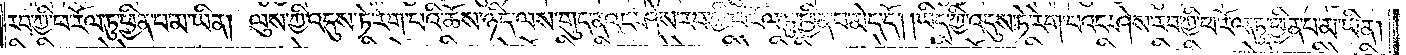རབ་ཀྱི་ཕ་རོལ་ཏུ་ཕྱིན་པ་མ་ཡིན། ལུས་ཀྱི་འདུས་ཏེ་རེག་པའི་ཆོས་ཉིད་ལས་གུད་ནའང་ཤེས་རབ་ཀྱི་ཕ་རོལ་ཏུ་ཕྱིན་པ་མེད་དོ། ཡིད་ཀྱི་འདུས་ཏེ་རེག་པའང་ཤེས་རབ་ཀྱི་ཕ་རོལ་ཏུ་ཕྱིན་པ་མ་ཡིན།
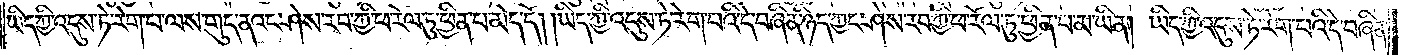ཡིད་ཀྱི་འདུས་ཏེ་རེག་པ་ལས་གུད་ནའང་ཤེས་རབ་ཀྱི་ཕ་རོལ་ཏུ་ཕྱིན་པ་མེད་དོ། །ཡིད་ཀྱི་འདུས་ཏེ་རེག་པའི་དེ་བཞིན་ཉིད་ཀྱང་ཤེས་རབ་ཀྱི་ཕ་རོལ་ཏུ་ཕྱིན་པ་མ་ཡིན། ཡིད་ཀྱི་འདུས་ཏེ་རེག་པའི་དེ་བཞིན་
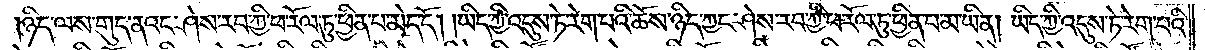ཉིད་ལས་གུད་ནའང་ཤེས་རབ་ཀྱི་ཕ་རོལ་ཏུ་ཕྱིན་པ་མེད་དོ། །ཡིད་ཀྱི་འདུས་ཏེ་རེག་པའི་ཆོས་ཉིད་ཀྱང་ཤེས་རབ་ཀྱི་ཕ་རོལ་ཏུ་ཕྱིན་པ་མ་ཡིན། ཡིད་ཀྱི་འདུས་ཏེ་རེག་པའི་
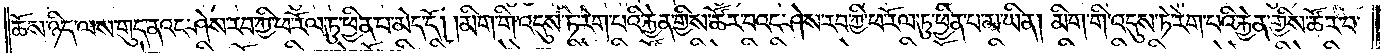ཆོས་ཉིད་ལས་གུད་ནའང་ཤེས་རབ་ཀྱི་ཕ་རོལ་ཏུ་ཕྱིན་པ་མེད་དོ། །མིག་གི་འདུས་ཏེ་རེག་པའི་རྐྱེན་གྱིས་ཚོར་བའང་ཤེས་རབ་ཀྱི་ཕ་རོལ་ཏུ་ཕྱིན་པ་མ་ཡིན། མིག་གི་འདུས་ཏེ་རེག་པའི་རྐྱེན་གྱིས་ཚོར་བ་
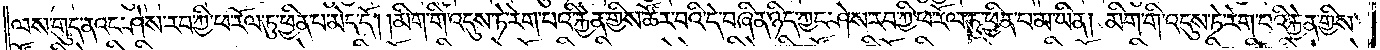ལས་གུད་ནའང་ཤེས་རབ་ཀྱི་ཕ་རོལ་ཏུ་ཕྱིན་པ་མེད་དོ། །མིག་གི་འདུས་ཏེ་རེག་པའི་རྐྱེན་གྱིས་ཚོར་བའི་དེ་བཞིན་ཉིད་ཀྱང་ཤེས་རབ་ཀྱི་ཕ་རོལ་ཏུ་ཕྱིན་པ་མ་ཡིན། མིག་གི་འདུས་ཏེ་རེག་པའི་རྐྱེན་གྱིས་
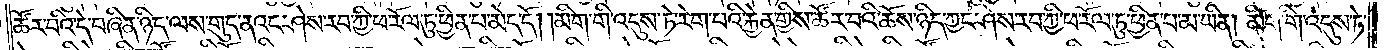ཚོར་བའི་དེ་བཞིན་ཉིད་ལས་གུད་ནའང་ཤེས་རབ་ཀྱི་ཕ་རོལ་ཏུ་ཕྱིན་པ་མེད་དོ། །མིག་གི་འདུས་ཏེ་རེག་པའི་རྐྱེན་གྱིས་ཚོར་བའི་ཆོས་ཉིད་ཀྱང་ཤེས་རབ་ཀྱི་ཕ་རོལ་ཏུ་ཕྱིན་པ་མ་ཡིན། མིག་གི་འདུས་ཏེ་
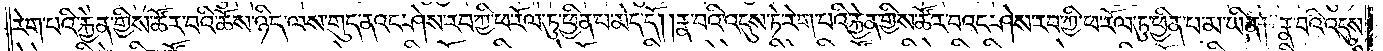རེག་པའི་རྐྱེན་གྱིས་ཚོར་བའི་ཆོས་ཉིད་ལས་གུད་ནའང་ཤེས་རབ་ཀྱི་ཕ་རོལ་ཏུ་ཕྱིན་པ་མེད་དོ། །རྣ་བའི་འདུས་ཏེ་རེག་པའི་རྐྱེན་གྱིས་ཚོར་བའང་ཤེས་རབ་ཀྱི་ཕ་རོལ་ཏུ་ཕྱིན་པ་མ་ཡིན། རྣ་བའི་འདུས་
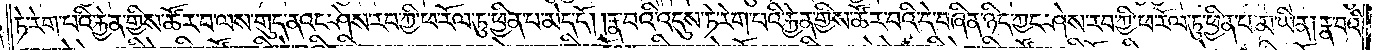ཏེ་རེག་པའི་རྐྱེན་གྱིས་ཚོར་བ་ལས་གུད་ནའང་ཤེས་རབ་ཀྱི་ཕ་རོལ་ཏུ་ཕྱིན་པ་མེད་དོ། །རྣ་བའི་འདུས་ཏེ་རེག་པའི་རྐྱེན་གྱིས་ཚོར་བའི་དེ་བཞིན་ཉིད་ཀྱང་ཤེས་རབ་ཀྱི་ཕ་རོལ་ཏུ་ཕྱིན་པ་མ་ཡིན། རྣ་བའི་
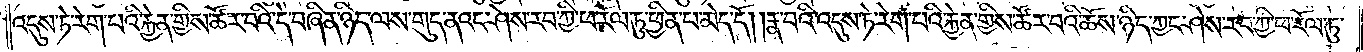འདུས་ཏེ་རེག་པའི་རྐྱེན་གྱིས་ཚོར་བའི་དེ་བཞིན་ཉིད་ལས་གུད་ནའང་ཤེས་རབ་ཀྱི་ཕ་རོལ་ཏུ་ཕྱིན་པ་མེད་དོ། །རྣ་བའི་འདུས་ཏེ་རེག་པའི་རྐྱེན་གྱིས་ཚོར་བའི་ཆོས་ཉིད་ཀྱང་ཤེས་རབ་ཀྱི་ཕ་རོལ་ཏུ་
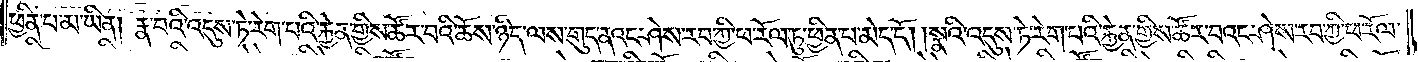ཕྱིན་པ་མ་ཡིན། རྣ་བའི་འདུས་ཏེ་རེག་བའི་རྐྱེན་གྱིས་ཚོར་བའི་ཆོས་ཉིད་ལས་གུད་ནའང་ཤེས་རབ་ཀྱི་ཕ་རོལ་ཏུ་ཕྱིན་པ་མེད་དོ། །སྣའི་འདུས་ཏེ་རེག་པའི་རྐྱེན་གྱིས་ཚོར་བའང་ཤེས་རབ་ཀྱི་ཕ་རོལ་
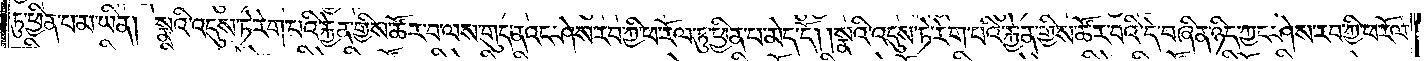ཏུ་ཕྱིན་པ་མ་ཡིན། སྣའི་འདུས་ཏེ་རེག་པའི་རྐྱེན་གྱིས་ཚོར་བ་ལས་གུད་ནའང་ཤེས་རབ་ཀྱི་ཕ་རོལ་ཏུ་ཕྱིན་པ་མེད་དོ། །སྣའི་འདུས་ཏེ་རེག་པའི་རྐྱེན་གྱིས་ཚོར་བའི་དེ་བཞིན་ཉིད་ཀྱང་ཤེས་རབ་ཀྱི་ཕ་རོལ་
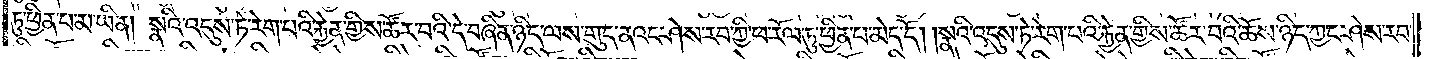ཏུ་ཕྱིན་པ་མ་ཡིན། སྣའི་འདུས་ཏེ་རེག་པའི་རྐྱེན་གྱིས་ཚོར་བའི་དེ་བཞིན་ཉིད་ལས་གུད་ནའང་ཤེས་རབ་ཀྱི་ཕ་རོལ་ཏུ་ཕྱིན་པ་མེད་དོ། །སྣའི་འདུས་ཏེ་རེག་པའི་རྐྱེན་གྱིས་ཚོར་བའི་ཆོས་ཉིད་ཀྱང་ཤེས་རབ་
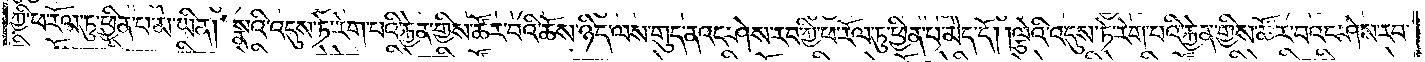ཀྱི་ཕ་རོལ་ཏུ་ཕྱིན་པ་མ་ཡིན། སྣའི་འདུས་ཏེ་རེག་པའི་རྐྱེན་གྱིས་ཚོར་བའི་ཆོས་ཉིད་ལས་གུད་ནའང་ཤེས་རབ་ཀྱི་ཕ་རོལ་ཏུ་ཕྱིན་པ་མེད་དོ། །ལྕེའི་འདུས་ཏེ་རེག་པའི་རྐྱེན་གྱིས་ཚོར་བའང་ཤེས་རབ་
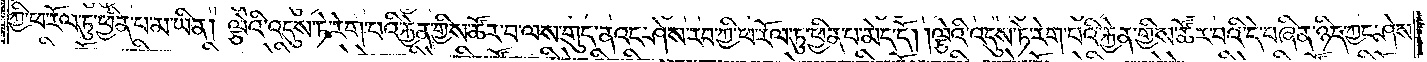ཀྱི་ཕ་རོལ་ཏུ་ཕྱིན་པ་མ་ཡིན། ལྕེའི་འདུས་ཏེ་རེག་པའི་རྐྱེན་གྱིས་ཚོར་བ་ལས་གུད་ནའང་ཤེས་རབ་ཀྱི་ཕ་རོལ་ཏུ་ཕྱིན་པ་མེད་དོ། །ལྕེའི་འདུས་ཏེ་རེག་པའི་རྐྱེན་གྱིས་ཚོར་བའི་དེ་བཞིན་ཉིད་ཀྱང་ཤེས་
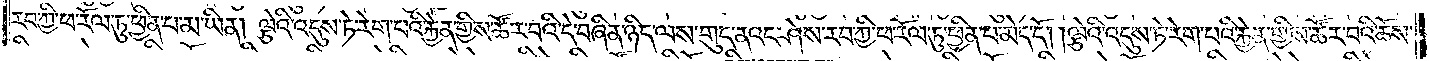རབ་ཀྱི་ཕ་རོལ་ཏུ་ཕྱིན་པ་མ་ཡིན། ལྕེའི་འདུས་ཏེ་རེག་པའི་རྐྱེན་གྱིས་ཚོར་བའི་དེ་བཞིན་ཉིད་ལས་གུད་ནའང་ཤེས་རབ་ཀྱི་ཕ་རོལ་ཏུ་ཕྱིན་པ་མེད་དོ། །ལྕེའི་འདུས་ཏེ་རེག་པའི་རྐྱེན་གྱིས་ཚོར་བའི་ཆོས་
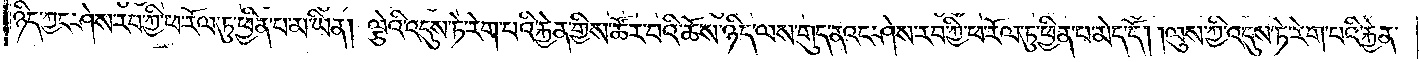ཉིད་ཀྱང་ཤེས་རབ་ཀྱི་ཕ་རོལ་ཏུ་ཕྱིན་པ་མ་ཡིན། ལྕེའི་འདུས་ཏེ་རེག་པའི་རྐྱེན་གྱིས་ཚོར་བའི་ཆོས་ཉིད་ལས་གུད་ནའང་ཤེས་རབ་ཀྱི་ཕ་རོལ་ཏུ་ཕྱིན་པ་མེད་དོ། །ལུས་ཀྱི་འདུས་ཏེ་རེག་པའི་རྐྱེན་
